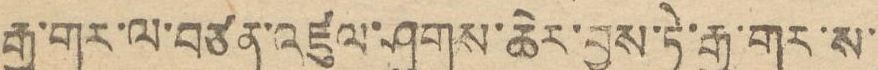རྒྱ་གར་ལ་བརྩན་འཛུལ་ཤུགས་ཆེར་བྱས་ཏེ་རྒྱ་གར་ས་
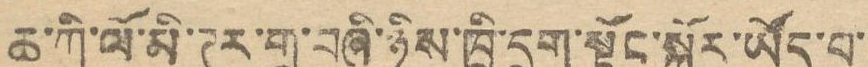ཆ་ཀི་ལོ་མི་ཊར་གྲུ་བཞི་ཉིས་ཁྲི་དྲུག་སྐོར་ཡོད་པ་
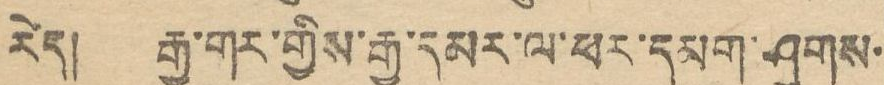རེད། རྒྱ་གར་གྱིས་རྒྱ་དམར་ལ་ཕར་དམག་ཤུགས་
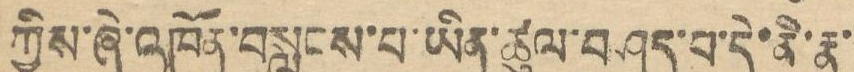ཀྱིས་ཞེ་འཁོན་བསླངས་པ་ཡིན་ཚུལ་བཤད་བ་དེ་ནི་རྣ་
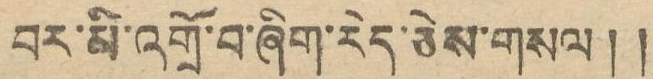བར་མི་འགྲོ་བ་ཞིག་རེད་ཅེས་གསལ ། །
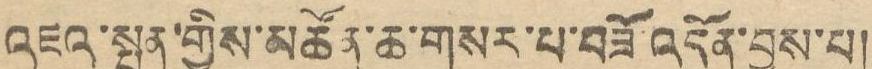འཇའ་སྤན་གྱིས་མཚོན་ཆ་གསར་པ་བཟོས་འདོན་བྱས་པ།
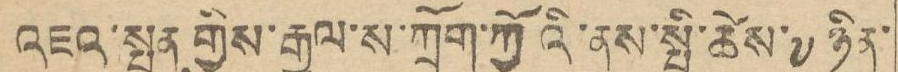འཇའ་སྤན གྱིས་རྒྱལ་ས་ཀྲོག་ཀྱོའི་ནས་སྤྱི་ཚེས་༧ ཉིན་
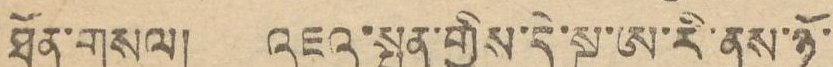ཐོན་གསལ། འཇའ་སྤན་གྱིས་དེ་སྔ་ཨ་རི་ནས་ཉོ་
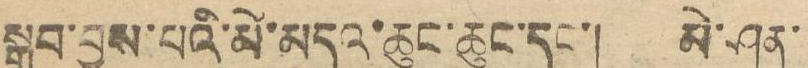སྒྲུབ་བྱས་པའི་མེ་མདའ་ཆུང་ཆུང་དང་། མེ་ཤན་
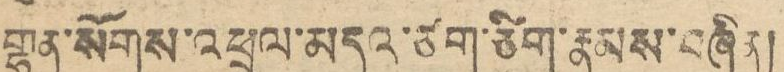གྷན་སོགས་འཕྲུལ་མདའ་ཙག་ཙིག་རྣམས་བཞིན།
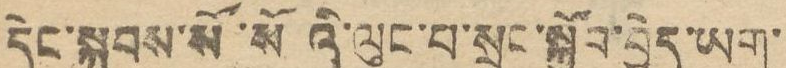དེང་སྐབས་སོ་སོའི་ལུང་བ་སྲུང་སྐྱོབ་བྱེད་ཡག་
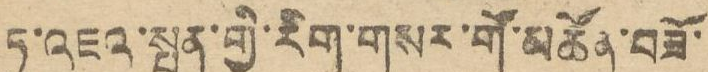ཏུ་འཇའ་སྤན་གྱི་རིག་གསར་གོ་མཚོན་བཟོ་
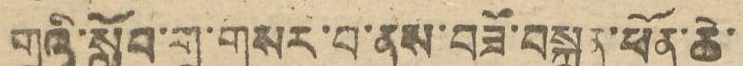གྲའི་སློབ་གྲ་གསར་པ་ནས་བཟོ་བསྐྲུན་ཕོན་ཆེ་
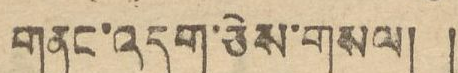གནང་འདུག་ཅེས་གསལ། །
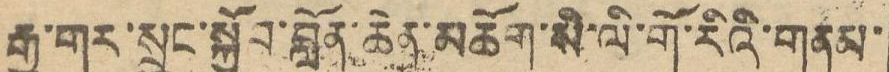རྒྱ་གར་སྲུང་སྐྱོབ་བློན་ཆེན་མཆོག་སི་ལི་གོ་རིའི་གནམ་
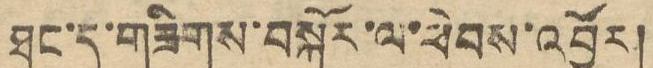ཐང་དུ་གཟིགས་བསྐོར་ལ་ཕེབས་འབྱོར།
